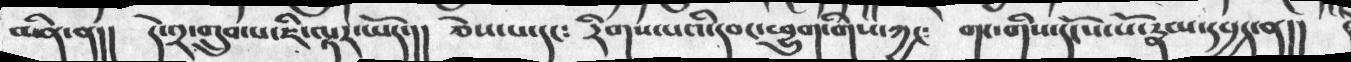མིན་ན།།  དེ་༢་གྲུབ་པ་ཇི་ལྟར་ཡོད་།། ཅེས་པ་དང༴  རིགས་པའི་དབང་ཕྱུག་གིས་ཀྱང༴  གང་གིས་དངོས་པོ་རྣམ་དཔྱད་ན།།
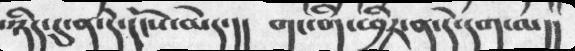་ཉིད་དུ་ན་དེ་དངོས་མེད་།། གང་གི་ཕྱིར་ན་དེ་དག་ལ།།
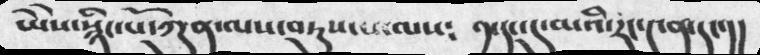ཡཻས་སྙིང་པོ་ཀུན་ལས་བཏུས་པ་ལས༴ ༡་དང་དུ་མའི་རང་༤ན་དང་།།
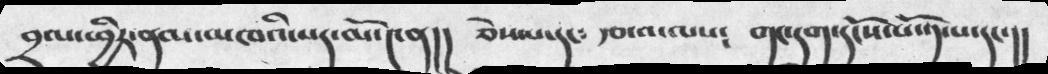བྲལ་ཕྱིར་ནམ་མཁའི་པད་མོ་༤ན།། ཅེས་པ་དང༴ རྩ་བ་ལས༴ གང་དག་དངོས་པོ་༡་པ་དང་།།
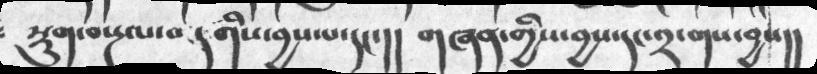སྡུག་བསྔལ་བདགིས་བྱས་པ་དང་།། གཞན་གྱིས་བྱས་དང་༢་གས་བྱས།།
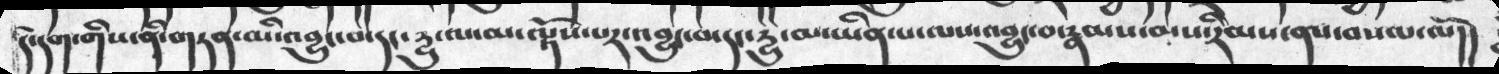དེ་དག་གིས་ནི་གཏན་མི་འབྱུང་བ་དང་དྱུ་ལ་མ་ལྟོས་པར་འབྱུང་བ་དང་དྱུ་མ་ཡིན་པ་ལས་འབྱུང་བ་རྣམས་མས་རིམས་ནས་བསལ་ལོ།།
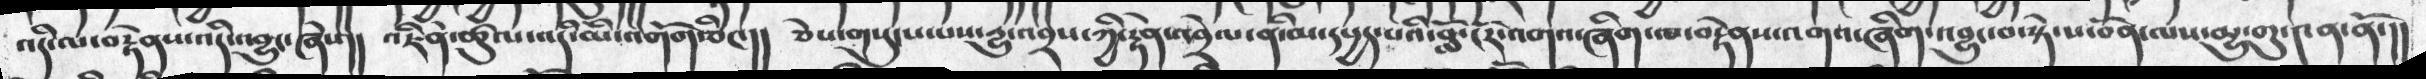འདི་ལ་བརྟེནས་འདི་འབྱུང་ཞེས།། འཇིེན་ཚུལ་འདི་མི་འགོག་ཅིང་།། ཅེས་གསུངས་པས་དྱུ་འབྲས་ཀྱི་རྟེན་འབྲེལ་ནི་མ་དཔྱད་པའི་བློ་ངོར་འགའ་ཞིག་ལ་བརྟེནས་འགའ་ཞིག་འབྱུང་བ་སྟེ་ས་བོན་ལས་མྱུ་གུ་༤ན་ནོ་།།
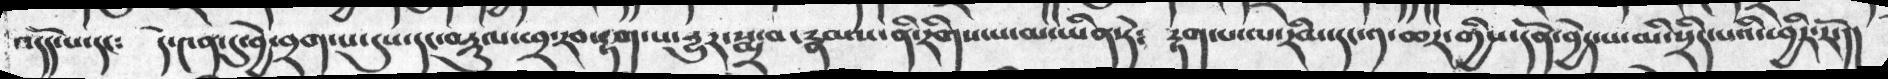འདོད་པ་དང༴ དེ་༤ན་དུ་བྱེ་བྲག་པ་དུས་དང་བརྡུལ་ཕྲ་རབ་རྟག་པ་དྱུར་སྨྲ་བ་རྣམས་ནི་རིགས་པ་མ་ཡིན་ཏེ༴ རྟག་པ་ལ་རིམ་དང་༡་ཆར་གྱིས་དོན་བྱེད་པ་མི་སྲིད་པའི་ཕྱིར་རོ་།།
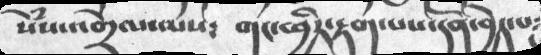སེཾས་འགྲེལ་ལས༴  གང་ཕྱིར་རྟག་པས་དོན་བྱེད་པ༴
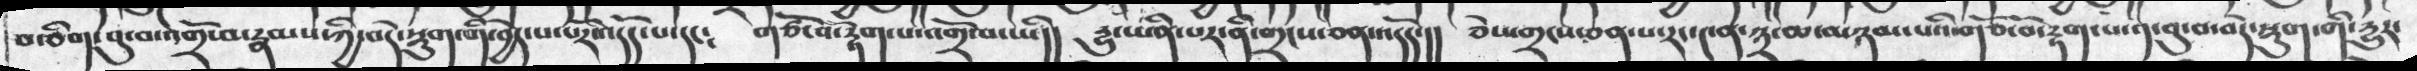བ་ཅིག་བུ་བ་འགྲོ་བ་རྣམས་ཀྱི་བདེ་སྡུག་གི་བྱེད་པ་པོར་འདོད་པ་དང༴  གཙོ་བོ་རྟག་པ་འགྲོ་བ་ཡི།།  རྱུ་ཡིན་པར་ནི་གྲངས་ཅན་འདོད་།།  ཅེས་པ་གྲངས་ཅན་པར་རང་༤ན་༣་ཆ་མཉམ་པའི་གཙོ་བོ་་རྟག་པ་༡་བུ་བ་བདེ་སྡུག་གི་རྱུར་
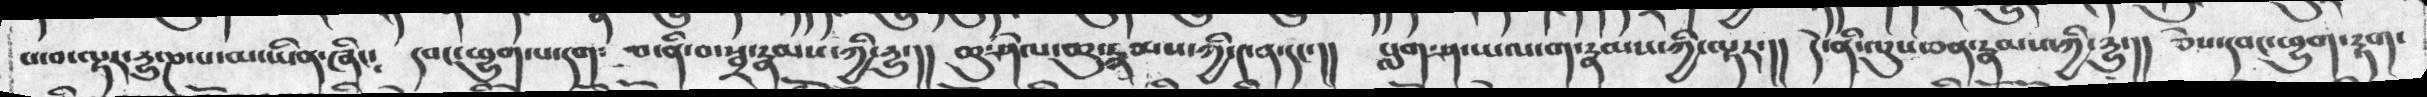པ་བ་ལྟར་དྱུ་ཎ་པ་མ་ཡིན་ཞིང༴  དབང་ཕྱུག་པ་དག༴   བ་ནི་བ་སྦྲ་རྣམས་ཀྱི་དྱུ་།།  ཆུ་ཤེལ་ཆུ་རྣམས་ཀྱི་༤ན་དང་།།  སླག་ཤ་ཡལ་ག་རྣམས་ཀྱི་ལྟར་།།  དེ་ནི་ལུས་ཅན་རྣམས་ཀྱི་དྱུ་།།  ཅེས་དབང་ཕྱུག་རྟག་
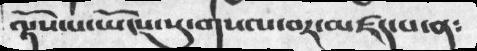ལྟོས་པ་ཡོངས་སུ་གསལ་བར་མཛད་པ་ན༴
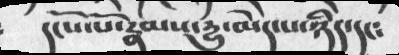དངོས་པོ་རྣམས་དྱུ་མེད་པ་ཉིད་དང༴
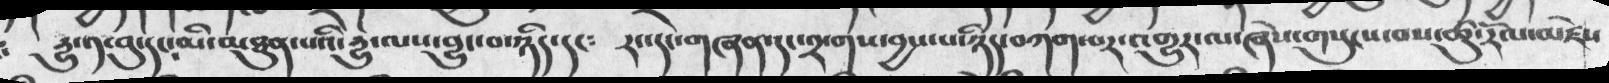དྱུ་༡་བུ་དང་མི་མཐུན་པའི་དྱུ་ལས་བྱུང་བ་ཉིད་དང༴  རང་དང་གཞན་དང་༢་གས་བྱས་པ་ཉིད་བཀག་པར་འགྱུར་ལ་ཞེས་གསུངས་བས་ཚུ་རོལ་མཛེས
